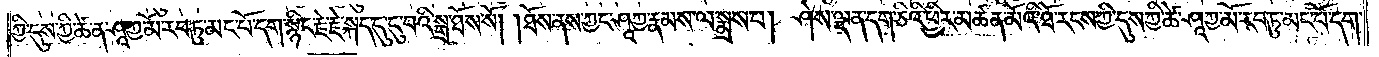ཀྱི་དུས་ཀྱི་ཚེ་ན་ཤཱཀྱ་མོ་རབ་ཏུ་མང་པོ་དག་སྙིང་རྗེ་རྗེ་སྐད་དུ་དུ་བའི་སྒྲ་ཐོས་སོ། །ཐོས་ནས་ཀྱང་ཤཱཀྱ་རྣམས་ལ་སྨྲས་པ། ཤེས་ལྡན་དག་ཅིའི་ཕྱིར་མཚན་མོའི་ཐོ་རངས་ཀྱི་དུས་ཀྱི་ཚེ་ཤཱཀྱ་མོ་རབ་ཏུ་མང་པོ་དག་
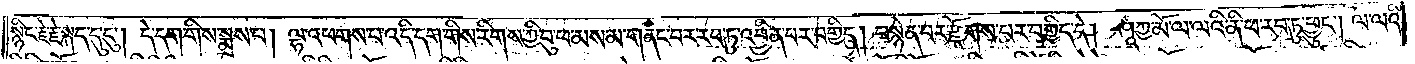སྙིང་རྗེ་རྗེ་སྐད་དུ་དུ། དེ་དག་གིས་སྨྲས་པ། ལྷ་འཕགས་པ་འདི་དག་གིས་རིགས་ཀྱི་བུ་ཕ་མས་མ་གནང་བར་རབ་ཏུ་འབྱིན་པར་བགྱིད། བསྙེན་པར་རྫོགས་པར་བགྱིད་དེ། ཤཱཀྱ་མོ་ལ་ལའི་ནི་ཕ་རབ་ཏུ་ཕྱུང༌། ལ་ལའི་
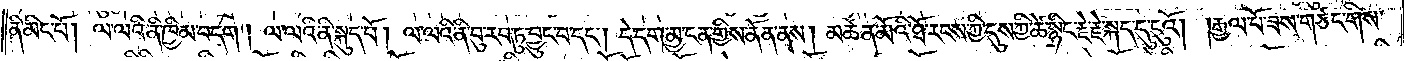ནི་མིང་པོ། ལ་ལའི་ནི་ཁྱིམ་བདག། ལ་ལའི་ནི་སྐུད་པོ། ལ་ལའི་ནི་བུ་རབ་ཏུ་བྱུང་བ་དང༌། དེ་དག་མྱ་ངན་གྱིས་ནོན་ནས། མཚན་མོའི་ཐོ་རངས་ཀྱི་དུས་ཀྱི་ཚེ་སྙིང་རྗེ་རྗེ་སྐད་དུ་དུའོ། །རྒྱལ་པོ་ཟས་གཙང་གིས་
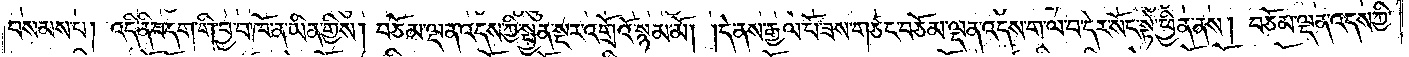བསམས་པ། འདི་ནི་བདག་གི་བྱ་བ་ཁོ་ན་ཡིན་གྱིས། བཅོམ་ལྡན་འདས་ཀྱི་སྤྱན་སྔར་འགྲོའོ་སྙམ་མོ། །དེ་ནས་རྒྱལ་པོ་ཟས་གཙང་བཅོམ་ལྡན་འདས་ག་ལ་བ་དེར་སོང་སྟེ་ཕྱིན་ནས། བཅོམ་ལྡན་འདས་ཀྱི་
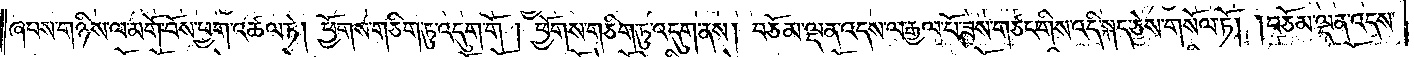ཞབས་གཉིས་ལ་མགོ་བོས་ཕྱག་འཚལ་ཏེ། ཕྱོགས་གཅིག་ཏུ་འདུག་གོ། ཕྱོགས་གཅིག་ཏུ་འདུག་ནས། བཅོམ་ལྡན་འདས་ལ་རྒྱལ་པོ་ཟས་གཙང་གིས་འདི་སྐད་ཅེས་གསོལ་ཏོ། །བཅོམ་ལྡན་འདས་
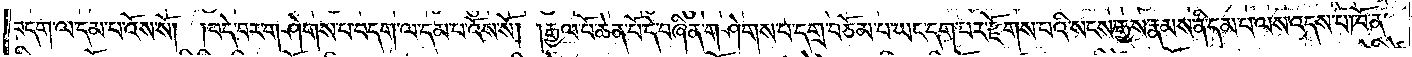བདག་ལ་དམ་པ་འོས་སོ། །བདེ་བར་གཤེགས་པ་བདག་ལ་དམ་པ་འོས་སོ། །རྒྱལ་པོ་ཆེན་པོ་དེ་བཞིན་གཤེགས་པ་དགྲ་བཅོམ་པ་ཡང་དག་པར་རྫོགས་པའི་སངས་རྒྱས་རྣམས་ནི་དམ་པ་ལས་འདས་པ་ཁོ་ན་
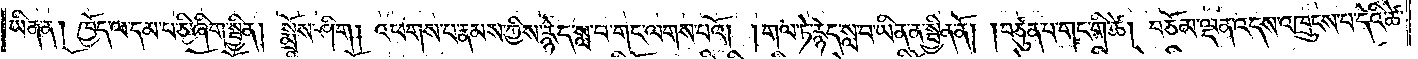ཡིན་ན། ཁྱོད་ལ་དམ་པ་ཅི་ཞིག་སྦྱིན། སྨྲོས་ཤིག། འཕགས་པ་རྣམས་ཀྱིས་རྙེད་སླ་བ་གང་ལགས་པའོ། །གལ་ཏེ་རྙེད་སླ་བ་ཡིན་ན་སྦྱིན་ནོ། །བཙུན་པ་གང་གི་ཚེ། བཅོམ་ལྡན་འདས་འཁྲུངས་པ་དེའི་ཚེ་
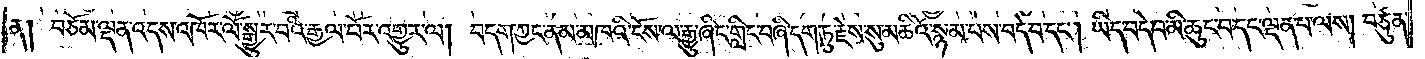ན། བཅོམ་ལྡན་འདས་འཁོར་ལོ་སྒྱུར་བའི་རྒྱལ་བོར་འགྱུར་ལ། བདག་ཀྱང་ནམ་མཁའི་ངོས་ལ་རྒྱུ་ཞིང་གླིང་བཞི་དག་ཏུ་རྗེས་སུ་མཆིའོ་སྙམ་པས་བདེ་བ་དང༌། ཡིད་བདེ་བ་མི་ཆུང་བ་དང་ལྡན་པ་ལས། བཙུན་
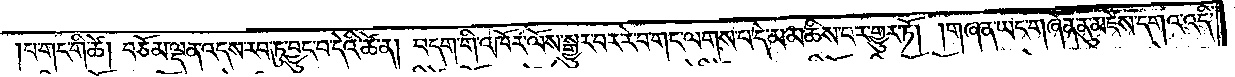པ་གང་གི་ཚེ། བཅོམ་ལྡན་འདས་རབ་ཏུ་བྱུང་བ་དེའི་ཚེ་ན། བདག་གི་འཁོར་ལོས་སྒྱུར་བར་རེ་བ་གང་ལགས་པ་དེ་མ་མཆིས་པར་གྱུར་ཏོ། །གཞན་ཡང་གཞོན་ནུ་མཛེས་དགའ་འདི་
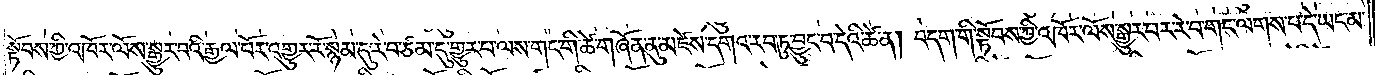སྟོབས་ཀྱི་འཁོར་ལོས་སྒྱུར་བའི་རྒྱལ་པོར་འགྱུར་རོ་སྙམ་དུ་རེ་བ་ཙམ་དུ་གྱུར་པ་ལས་གང་གི་ཚེ་གཞོན་ནུ་མཛེས་དགའ་རབ་ཏུ་བྱུང་བ་དེའི་ཚེ་ན། བདག་གི་སྟོབས་ཀྱི་འཁོར་ལོས་སྒྱུར་བར་རེ་བ་གང་ལགས་པ་དེ་ཡང་མ་
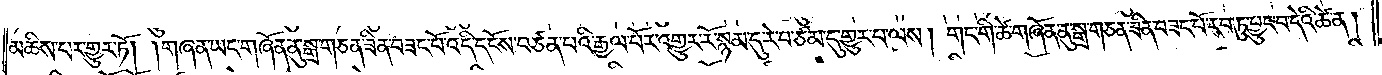མཆིས་པར་གྱུར་ཏོ། །གཞན་ཡང་གཞོན་ནུ་སྒྲ་གཅན་ཟིན་བཟང་པོ་འདི་དངོས་བཙན་པའི་རྒྱལ་པོར་འགྱུར་རོ་སྙམ་དུ་རེ་བ་ཙམ་དུ་གྱུར་བ་ལས། གང་གི་ཚེ་གཞོན་ནུ་སྒྲ་གཅན་ཟིན་བཟང་པོ་རབ་ཏུ་བྱུང་བ་དེའི་ཚེ་ན།
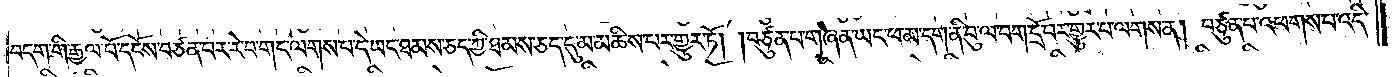བདག་གི་རྒྱལ་པོ་དངོས་བཙན་བར་རེ་བ་གང་ལགས་པ་དེ་ཡང་ཐམས་ཅད་ཀྱི་ཐམས་ཅད་དུ་མ་མཆིས་པར་གྱུར་ཏོ། །བཙུན་པ་གཞན་ཡང་ཕ་མ་དག་ནི་བུ་ལ་བག་དྲོ་བར་གྱུར་པ་ལགས་ན། བཙུན་པ་འཕགས་པ་འདི་
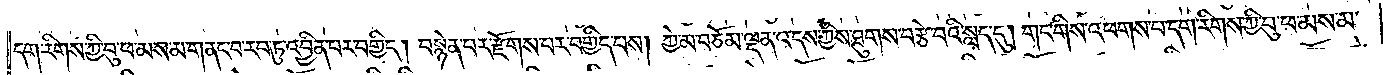དག་རིགས་ཀྱི་བུ་ཕ་མས་མ་གནང་བ་རབ་ཏུ་འབྱིན་པར་བགྱིད། བསྙེན་པར་རྫོགས་པར་བགྱིད་པས། ཀྱེ་མ་བཅོམ་ལྡན་འདས་ཀྱིས་ཐུགས་བརྩེ་བའི་སླད་དུ། གང་གིས་འཕགས་པ་དག་རིགས་ཀྱི་བུ་ཕ་མས་མ་
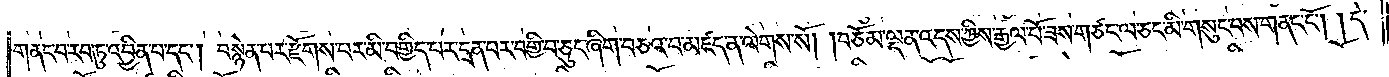གནང་བ་རབ་ཏུ་འབྱིན་པ་དང༌། བསྙེན་པར་རྫོགས་པར་མི་བགྱིད་པར་དྲན་པར་བགྱི་བ་ཅུང་ཞིག་བཅའ་བ་མཛད་ན་ལེགས་སོ། །བཅོམ་ལྡན་འདས་ཀྱིས་རྒྱལ་པོ་ཟས་གཙང་ལ་ཅང་མི་གསུང་བས་གནང་ངོ༌། །དེ་
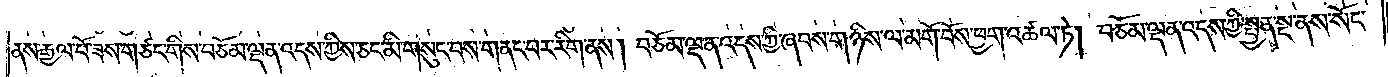ནས་རྒྱལ་པོ་ཟས་གཙང་གིས་བཅོམ་ལྡན་འདས་ཀྱིས་ཅང་མི་གསུང་བས་གནང་བར་རིག་ནས། བཅོམ་ལྡན་འདས་ཀྱི་ཞབས་གཉིས་ལ་མགོ་བོས་ཕྱག་འཚལ་ཏེ། བཅོམ་ལྡན་འདས་ཀྱི་སྤྱན་སྔ་ནས་སོང་
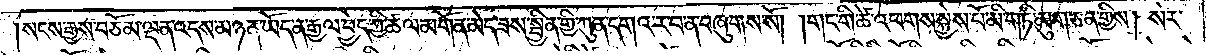སངས་རྒྱས་བཅོམ་ལྡན་འདས་མཉན་ཡོད་ན་རྒྱལ་བྱེད་ཀྱི་ཚལ་མགོན་མེད་ཟས་སྦྱིན་གྱི་ཀུན་དགའ་ར་བ་ན་བཞུགས་སོ། །གང་གི་ཚེ་འཕགས་སྐྱེས་པོ་མི་གཏི་མུག་ཅན་གྱིས། སེར་
